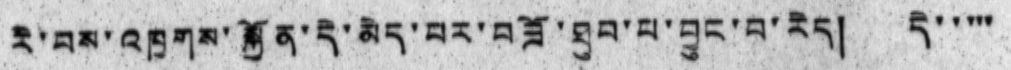རི་བས་འཁྲུགས་སྐྱོན་དེ་མེད་པར་བཟོ་ཐུབ་པ་བྱུང་བ་རེད། དེ་་་་་
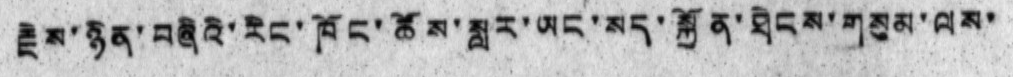རྗེས་ཉིན་བཞིའི་རིང་ཁོང་ཚོས་སླར་ཡང་སད་སྐྱོན་ཐེངས་གསུམ་ལས་
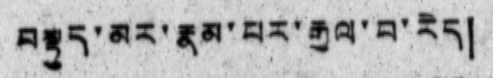བསྟུད་མར་རྣམ་པར་རྒྱལ་བ་རེད།
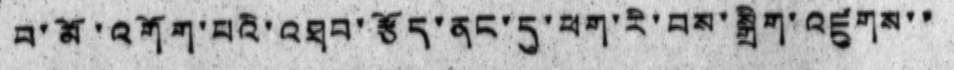བ་མོ་འགོག་པའི་འཐབ་རྩོད་ནང་དུ་ཕག་རི་བས་སྒྲིག་འཛུགས་་
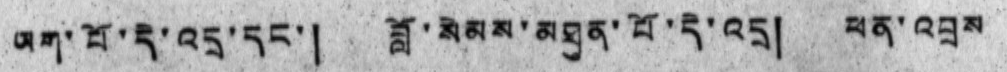ཡག་པོ་དེ་འདྲ་དང་། བློ་སེམས་མཐུན་པོ་དེ་འདྲ། ཕན་འབྲས
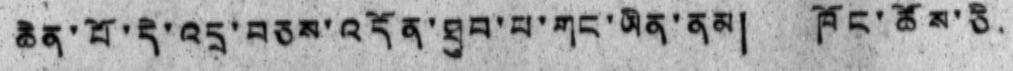ཆེན་པོ་དེ་འདྲ་བཅས་འདོན་ཐུབ་པ་གང་ཡིན་ནམ། ཁོང་ཚོས་ཅི
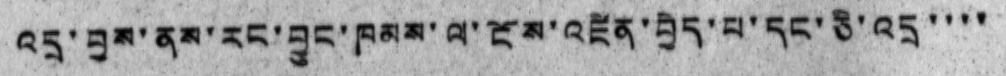འདྲ་བྱས་ནས་རང་བྱུང་ཁམས་ལ་ངོས་འཛིན་བྱེད་པ་དང་ཅི་འདྲ་་་་
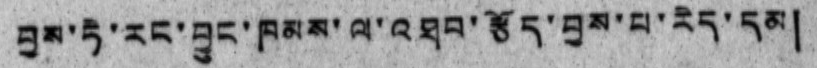བྱས་ཏེ་རང་བྱུང་ཁམས་ལ་འཐབ་རྩོད་བྱས་པ་རེད་དམ།
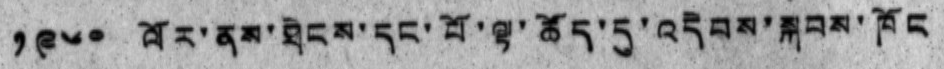༡༩༦༠ ལོར་ནས་ཐེངས་དང་པོ་ལྟ་ཚོད་དུ་འདེབས་སྐབས་ཁོང
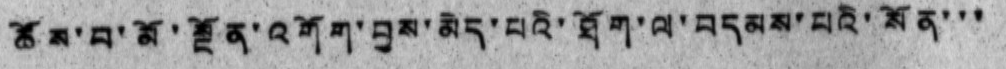ཚོས་བ་མོ་སྔོན་འགོག་བྱས་མེད་པའི་ཐོག་ལ་བདམས་པའི་སོན་་་
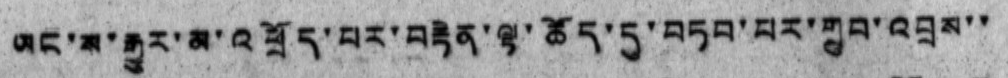ཡང་ས་རྒྱུར་མ་འཕྲོད་པར་བརྟེན་ལྟ་ཚོད་དུ་བཏབ་པར་གྲུབ་འབྲས་་
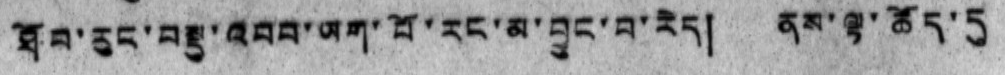ཐོབ་རུང་བསྡུ་འབབ་ཡག་པོ་རང་མ་བྱུང་བ་རེད། ནས་ལྟ་ཚོད་དུ
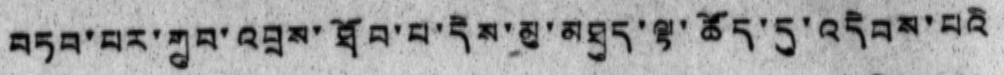བཏབ་པར་གྲུབ་འབྲས་ཐོབ་པ་དེས་མུ་མཐུད་ལྟ་ཚོད་དུ་འདེབས་པའི
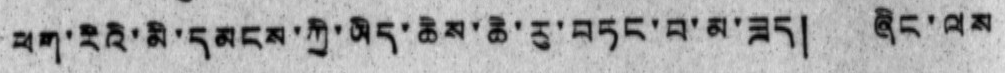ཕག་རིའི་མི་དམངས་ཀྱི་ཡིད་ཆེས་ཆེ་རུ་བཏང་བ་མ་ཟད། ཞིང་ལས
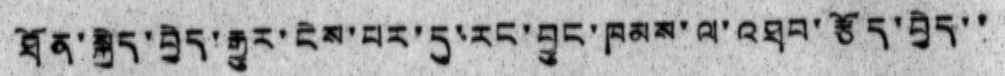ཐོན་སྐྱེད་བྱེད་རྒྱུར་ངེས་པར་དུ་རང་བྱུང་ཁམས་ལ་འཐབ་རྩོད་བྱེད་་
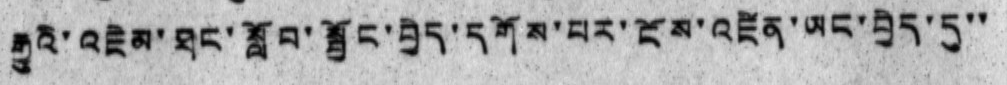རྒྱུའི་འཇེམ་ཐང་སློབ་སྦྱོང་བྱེད་དགོས་པར་ངོམ་འཛིན་ཡང་བྱེད་དུ་་
